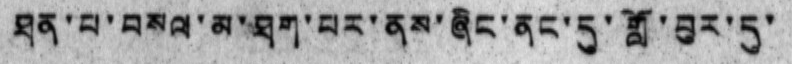ཐན་པ་བསལ་མ་ཐག་པར་ནས་ཞིང་ནང་དུ་གློ་བུར་དུ་
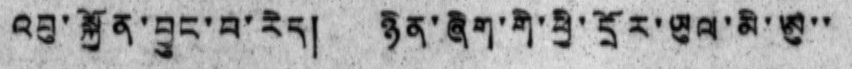འབུ་སྐྱོན་བྱུང་བ་རེད། ཉིན་ཞིག་གི་ཕྱི་དྲོར་ཡུལ་མི་ཨུ་་
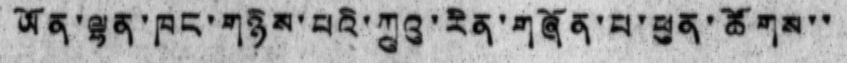ཡོན་ལྷན་ཁང་གཉིས་པའི་ཀྲུའུ་རིན་གཞོན་པ་ཕུན་ཚོགས་་
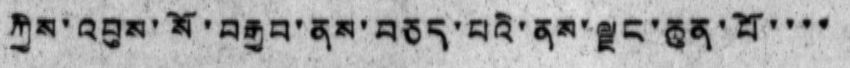ཀྱིས་འབུས་སོ་བརྒྱབ་ནས་བཅད་པའི་ནས་ལྗང་ཆུན་པོ་་་་
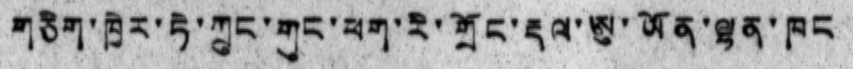གཅིག་ཁྱེར་ཏེ་ཀྲུང་གུང་ཕག་རི་གྲོང་རྡལ་ཨུ་ཡོན་ལྷན་ཁང
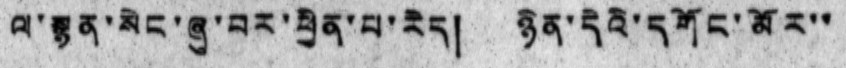ལ་སྙན་སེང་ཞུ་བར་ཕྱིན་པ་རེད། ཉིན་དེའི་དགོང་མོར་་
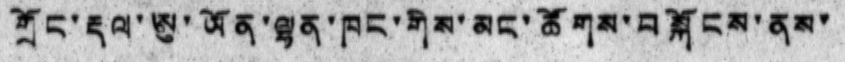གྲོང་རྡལ་ཨུ་ཡོན་ལྷན་ཁང་གིས་མང་ཚོགས་བསྐོངས་ནས་
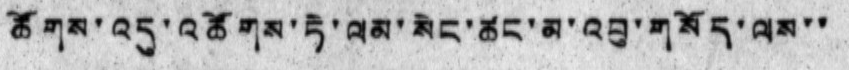ཚོགས་འདུ་འཚོགས་ཏེ་ལམ་སེང་ཚང་མ་འབུ་གསོད་ལས་་
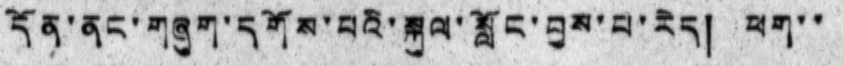དོན་ནང་གཞུག་དགོས་པའི་སྐུལ་སློང་བྱས་པ་རེད། ཕག་་
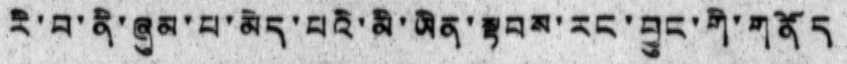རི་བ་ནི་ཞུམ་པ་མེད་པའི་མི་ཡིན་སྟབས་རང་བྱུང་གི་གནོད
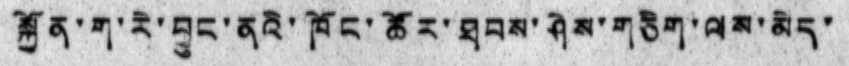སྐྱོན་ག་རི་བྱུང་ནའི་ཁོང་ཚོར་ཐབས་ཤེས་གཅིག་ལམ་མེད་
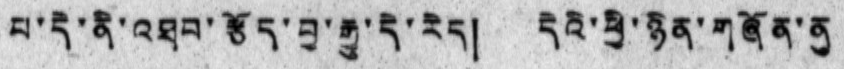པ་དེ་ནི་འཐབ་རྩོད་བྱ་རྒྱུ་དེ་རེད། དེའི་ཕྱི་ཉིན་གཞོན་ནུ
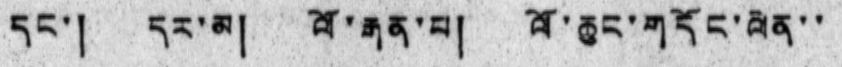དང་། དར་མ། ལོ་རྒན་པ། ལོ་ཆུང་གདོང་ལེན་་
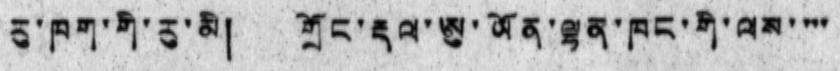རུ་ཁག་གི་རུ་མི། གྲོང་རྡལ་ཨུ་ཡོན་ལྷན་ཁང་གི་ལས་་་་
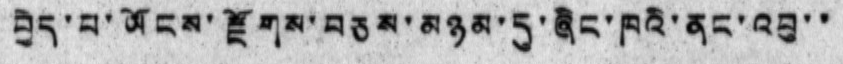བྱེད་པ་ཡོངས་རྫོགས་བཅས་མཉམ་དུ་ཞིང་ཁའི་ནང་འབུ་་
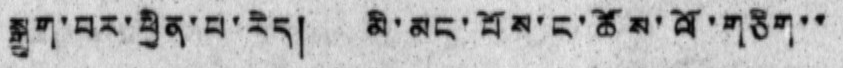སྒྲུག་བར་ཕྱིན་པ་རེད། མི་མང་པོས་ང་ཚོས་ལོ་གཅིག་་
